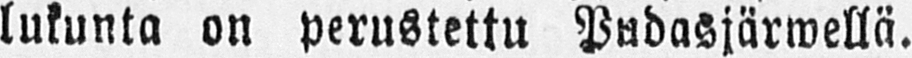lukunta on perustettu Pudasjärwellä.
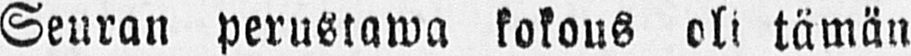Seuran perustawa kokous oli tämän
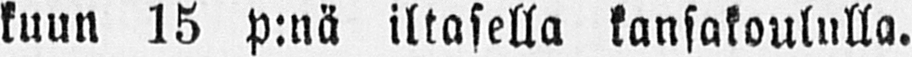kuun 15 p:nä iltasella kansakoululla.
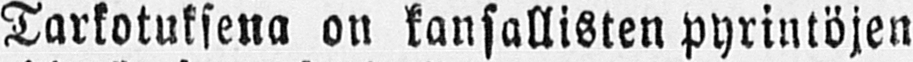Tarkotuksena on kansallisten pyrintöjen
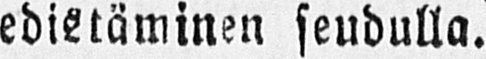edistäminen seudulla.
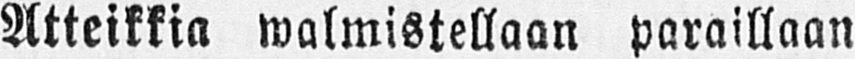Atteikkia walmistellaan paraillaan
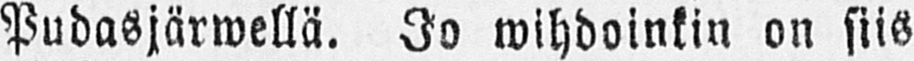Pudasjärwellä. Jo wihdoinkin on siis
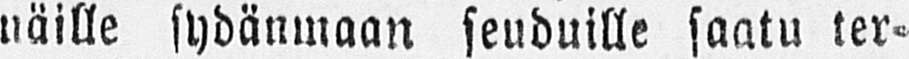näille sydänmaan seuduille saatu ter-
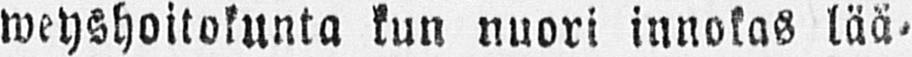weyshoitokunta kun nuori innokas lää-
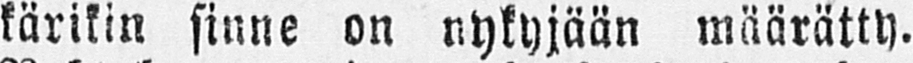kärikin sinne on nykyjään määrätty.
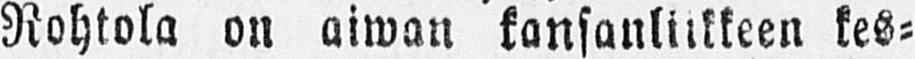Rohtola on aiwan kansanliikeen kes-
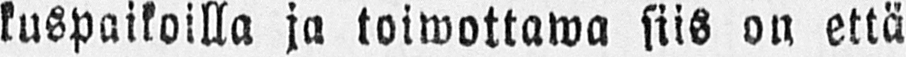kuspaikoilla ja toiwottawa siis on että
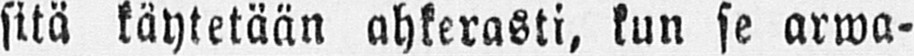sitä käytetään ahkerasti, kun se arwa-
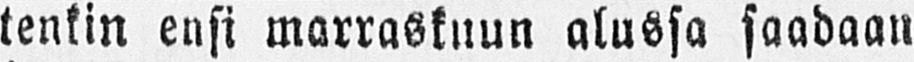tenkin ensi marraskuun alussa saadaan
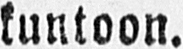kuntoon.
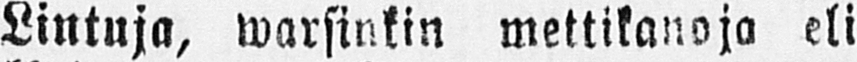Lintuja, warsinkin mettikanoja eli
